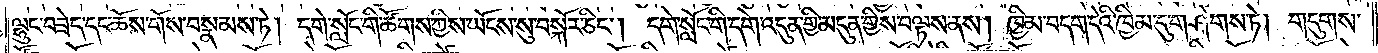ལྷུང་བཟེད་དང་ཆོས་གོས་བསྣམས་ཏེ། དགེ་སློང་གི་ཚོགས་ཀྱིས་ཡོངས་སུ་བསྐོར་ཅིང༌། དགེ་སློང་གི་དགེ་འདུན་གྱི་མདུན་གྱིས་བལྟས་ནས། ཁྱིམ་བདག་དེའི་ཁྱིམ་དུ་གཤེགས་ཏེ། གདུགས་
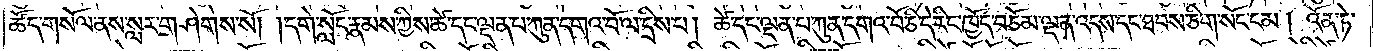ཚོད་གསོལ་ནས་སླར་གཤེགས་སོ། །དགེ་སློང་རྣམས་ཀྱི་ཚེ་དང་ལྡན་པ་ཀུན་དགའ་བོ་ལ་དྲིས་པ། ཚེ་དང་ལྡན་པ་ཀུན་དགའ་བོ་ཅི་དེ་རིང་ཁྱོད་བཅོམ་ལྡན་འདས་དང་ཐབས་ཅིག་སོང་ངམ། འོན་ཏེ་
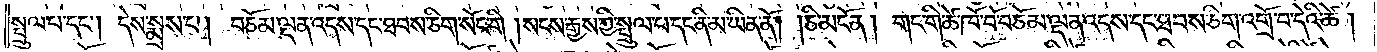སྤྲུལ་པ་དང༌། དེས་སྨྲས་པ། བཅོམ་ལྡན་འདས་དང་ཐབས་ཅིག་སོང་གི །སངས་རྒྱས་ཀྱི་སྤྲུལ་པ་དང་ནི་མ་ཡིན་ནོ། །ཅི་མངོན། གང་གི་ཚེ་ཁོ་བོ་བཅོམ་ལྡན་འདས་དང་ཐབས་ཅིག་འགྲོ་བ་དེའི་ཚེ།
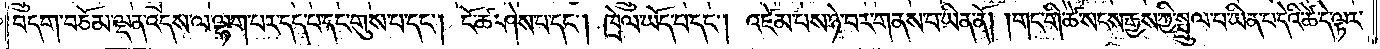བདག་བཅོམ་ལྡན་འདས་ལ་ལྷག་པར་དད་པ་དང་གུས་པ་དང༌། ངོ་ཚ་ཤེས་པ་དང༌། ཁྲེལ་ཡོད་པ་དང༌། འཛེམ་པས་ཉེ་བར་གནས་པ་ཡིན་ནོ། །གང་གི་ཚེ་སངས་རྒྱས་ཀྱི་སྤྲུལ་པ་ཡིན་པ་དེའི་ཚེ་དེ་ལྟར་
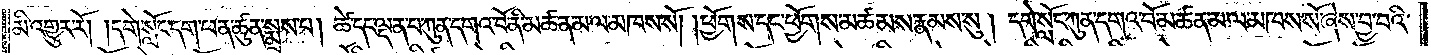མི་འགྱུར་རོ། །དགེ་སློང་དག་ཕན་ཚུན་སྨྲས་པ། ཚེ་དང་ལྡན་པ་ཀུན་དགའ་བོ་ནི་མཚན་མ་ལ་མཁས་སོ། །ཕྱོགས་དང་ཕྱོགས་མཚམས་རྣམས་སུ། དགེ་སློང་ཀུན་དགའ་བོ་མཚན་མ་ལ་མཁས་སོ་ཞེས་བྱ་བའི་
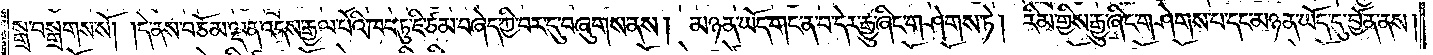སྒྲ་བསྒྲགས་སོ། །དེ་ནས་བཅོམ་ལྡན་འདས་རྒྱལ་པོའི་ཁབ་ཏུ་ཇི་ཙམ་བཞེད་ཀྱི་བར་དུ་བཞུགས་ནས། མཉན་ཡོད་གང་ན་བ་དེར་རྒྱུ་ཞིང་གཤེགས་ཏེ། རིམ་གྱིས་རྒྱུ་ཞིང་གཤེགས་པ་དང་མཉན་ཡོད་དུ་བྱོན་ནས།
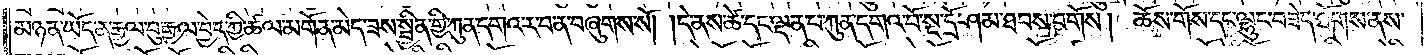མཉན་ཡོད་ན་རྒྱལ་བུ་རྒྱལ་བྱེད་ཀྱི་ཚལ་མགོན་མེད་ཟས་སྦྱིན་གྱི་ཀུན་དགའ་ར་བ་ན་བཞུགས་སོ། །དེ་ནས་ཚེ་དང་ལྡན་པ་ཀུན་དགའ་བོ་སྔ་དྲོ་ཤམ་ཐབས་བགོས། །ཆོས་གོས་དང་ལྷུང་བཟེད་ཐོགས་ནས་
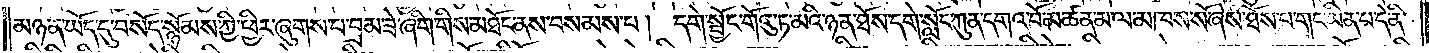མཉན་ཡོད་དུ་བསོད་སྙོམས་ཀྱི་ཕྱིར་ཞུགས་པ་བྲམ་ཟེ་ཞིག་གིས་མཐོང་ནས་བསམས་པ། དགེ་སྦྱོང་གོའུ་ཏ་མའི་ཉན་ཐོས་དགེ་སློང་ཀུན་དགའ་བོ་མཚན་མ་ལ་མཁས་སོ་ཞེས་ཐོས་པ་གང་ཡིན་པ་དེ་ནི་
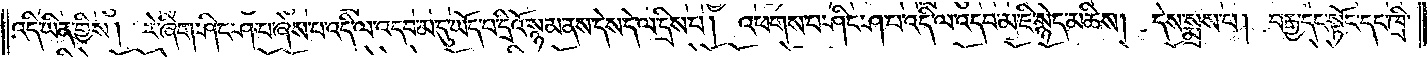འདི་ཡིན་གྱིས། རེ་ཞིག་ཤིང་ཤ་པ་ཞེས་པ་འདི་ལ་འདམ་མ་དུ་ཡོད་པ་དྲིའོ་སྙམ་ནས་དེས་དེ་ལ་དྲིས་པ། འཕགས་པ་ཤིང་ཤ་པ་འདི་ལ་འདབ་མ་ཇི་སྙེད་མཆིས། དེས་སྨྲས་པ། བརྒྱ་དང་སྟོང་དང་ཁྲི་
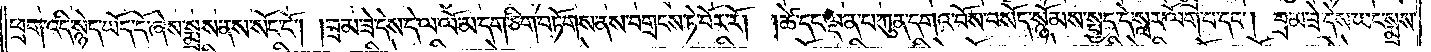ཕྲག་འདི་སྙེད་ཡོད་དོ་ཞེས་སྨྲས་ནས་སོང་ངོ༌། །བྲམ་ཟེ་དེས་དེ་ལ་ལོ་མ་དག་ཅིག་བཏོགས་ནས་བགྲངས་ཏེ་བོར་རོ། །ཚེ་དང་ལྡན་པ་ཀུན་དགའ་བོས་བསོད་སྙོམས་སྤྱད་དེ་སླར་ལོག་པ་དང༌། བྲམ་ཟེ་དེས་ཡང་སྨྲས་
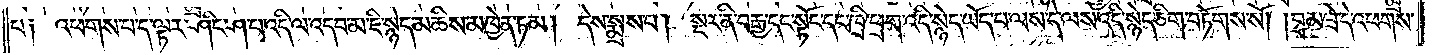པ། འཕགས་པ་ད་ལྟར་ཤིང་ཤ་པ་འདི་ལ་འདབ་མ་ཇི་སྙེད་མཆིས་མཁྱེན་ཏམ། དེས་སྨྲས་པ། སྔར་ནི་བརྒྱ་དང་སྟོང་དང་ཁྲི་ཕྲག་འདི་སྙེད་ཡོད་པ་ལས་དེ་ལས་འདི་སྙེད་ཅིག་བཏོགས་སོ། །བྲམ་ཟེ་དེ་འཕགས་
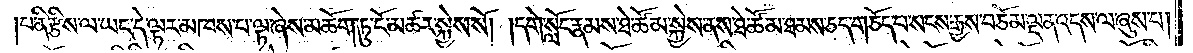པ་ནི་རྩིས་ལ་ཡང་དེ་ལྟར་མཁས་པ་ལྟ་ཞེས་མཆོག་ཏུ་ངོ་མཚར་སྐྱེས་སོ། །དགེ་སློང་རྣམས་ཐེ་ཚོམ་སྐྱེས་ནས་ཐེ་ཚོམ་ཐམས་ཅད་གཅོད་པ་སངས་རྒྱས་བཅོམ་ལྡན་འདས་ལ་ཞུས་པ།
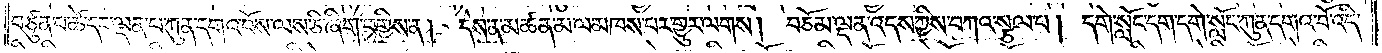བཙུན་པ་ཚེ་དང་ལྡན་པ་ཀུན་དགའ་བོས་ལས་ཅི་ཞིག་བགྱིས་ན། དེས་ན་མཚན་མ་ལ་མཁས་པར་གྱུར་ལགས། བཅོམ་ལྡན་འདས་ཀྱིས་བཀའ་སྩལ་པ། དགེ་སློང་དག་དགེ་སློང་ཀུན་དགའ་བོ་འདི་
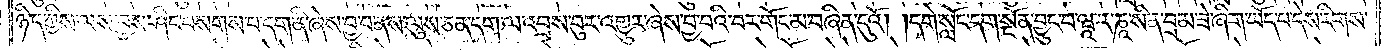ཉིད་ཀྱིས་ལས་བྱས་ཤིང་བསགས་པ་དག་ནི་ཞེས་བྱ་བ་ནས་ལུས་ཅན་དག་ལ་འབྲས་བུར་འགྱུར་ཞེས་བྱ་བའི་བར་གོང་མ་བཞིན་དུའོ། །དགེ་སློང་དག་སྔོན་བྱུང་བ་ཝཱ་ར་ཎཱ་སི་ན་བྲམ་ཟེ་ཞིག་ཡོད་པ་དེས་རིགས་
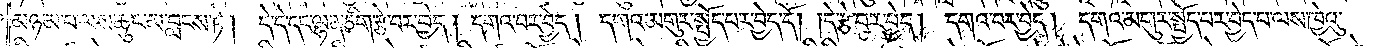མཉམ་པ་ལས་ཆུང་མ་བླངས་ཏེ། དེ་དེ་དང་ལྷན་ཅིག་རྩེ་བར་བྱེད། དགའ་བར་བྱེད། དགའ་མགུར་སྤྱོད་པར་བྱེད་དོ། །དེ་རྩེ་བར་བྱེད། དགའ་བར་བྱེད། དགའ་མགུར་སྤྱོད་པར་བྱེད་པ་ལས་ཁྱེའུ་
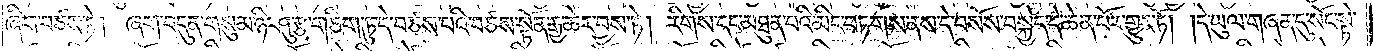ཞིག་བཙས་ཏེ། ཞག་བདུན་གསུམ་ཉི་ཤུ་རྩ་གཅིག་ཏུ་དེ་བཙས་པའི་བཙས་སྟོན་རྒྱ་ཆེར་བྱས་ཏེ། རིགས་དང་མཐུན་པའི་མིང་བཏགས་ནས་དེ་བསོས་བསྐྱེད་དེ་ཆེན་པོར་གྱུར་ཏོ། །དེ་ཡུལ་གཞན་དུ་སོང་སྟེ་
